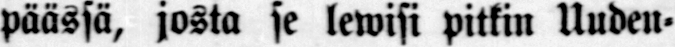päässä, josta se lewisi pitkin Uuden-
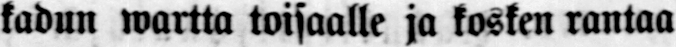kadun wartta toisaalle ja kosken rantaa
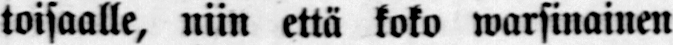toisaalle, niin että koko warsinainen
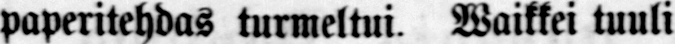paperitehdas turmeltui. Waikkei tuuli
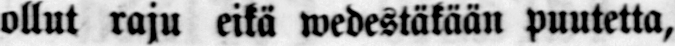ollut raju eikä medestäkään puutetta,
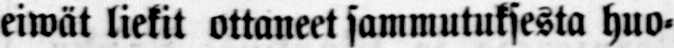eiwät liekit ottaneet sammutuksesta huo-
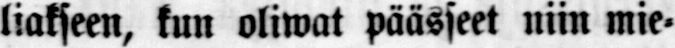liakseen, kun oliwat päässeet niin mie-
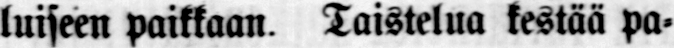luiseen paikkaan Taistelua kestää pa-
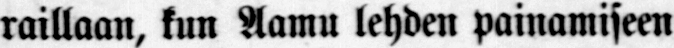raillaan, kun Aamu lehden painamiseen
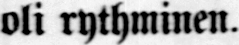oli rythminen.
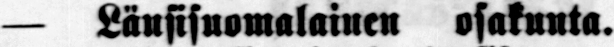— Länsisuomalaiuen osakunta.
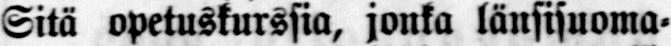Sitä opetuskurssia, jonka länsisuoma-
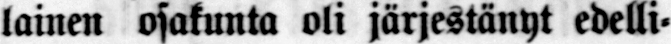lainen osakunta oli järjestänyt edelli-
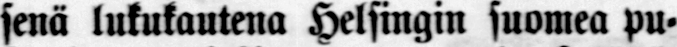senä lukukautena Helsingin suomea pu-
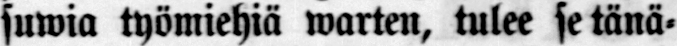suwia työmiehiä warten, tulee se tänä-
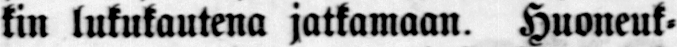kin lukukautena jatkamaan. Huoneuk-
